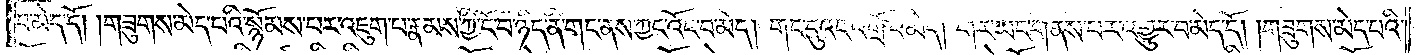བ་མེད་དོ། །གཟུགས་མེད་པའི་སྙོམས་པར་འཇུག་པ་རྣམས་ཀྱི་ངོ་བོ་ཉིད་ནི་གང་ནས་ཀྱང་འོང་བ་མེད། གང་དུའང་འགྲོ་བ་མེད། གར་ཡང་གནས་པར་འགྱུར་བ་མེད་དོ། །གཟུགས་མེད་པའི་
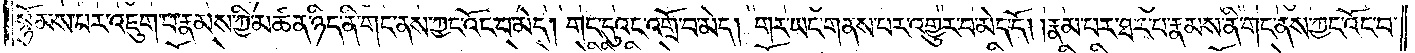སྙོམས་པར་འཇུག་པ་རྣམས་ཀྱི་མཚན་ཉིད་ནི་གང་ནས་ཀྱང་འོང་བ་མེད། གང་དུའང་འགྲོ་བ་མེད། གར་ཡང་གནས་པར་འགྱུར་བ་མེད་དོ། །རྣམ་པར་ཐར་པ་རྣམས་ནི་གང་ནས་ཀྱང་འོང་བ་
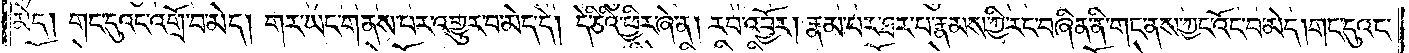མེད། གང་དུའང་འགྲོ་བ་མེད། གར་ཡང་གནས་པར་འགྱུར་བ་མེད་དེ། དེ་ཅིའི་ཕྱིར་ཞེ་ན། རབ་འབྱོར། རྣམ་པར་ཐར་པ་རྣམས་ཀྱི་རང་བཞིན་ནི་གང་ནས་ཀྱང་འོང་བ་མེད། གང་དུའང་
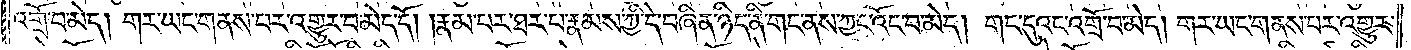འགྲོ་བ་མེད། གར་ཡང་གནས་པར་འགྱུར་བ་མེད་དོ། །རྣམ་པར་ཐར་པ་རྣམས་ཀྱི་དེ་བཞིན་ཉིད་ནི་གང་ནས་ཀྱང་འོང་བ་མེད། གང་དུའང་འགྲོ་བ་མེད། གར་ཡང་གནས་པར་འགྱུར་
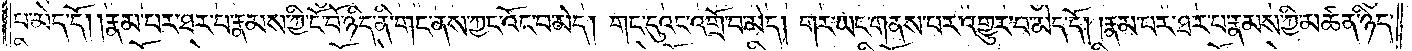བ་མེད་དོ། །རྣམ་པར་ཐར་པ་རྣམས་ཀྱི་ངོ་བོ་ཉིད་ནི་གང་ནས་ཀྱང་འོང་བ་མེད། གང་དུའང་འགྲོ་བ་མེད། གར་ཡང་གནས་པར་འགྱུར་བ་མེད་དོ། །རྣམ་པར་ཐར་པ་རྣམས་ཀྱི་མཚན་ཉིད་
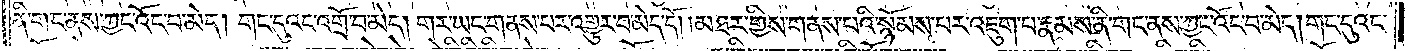ནི་གང་ནས་ཀྱང་འོང་བ་མེད། གང་དུའང་འགྲོ་བ་མེད། གར་ཡང་གནས་པར་འགྱུར་བ་མེད་དོ། །མཐར་གྱིས་གནས་པའི་སྙོམས་པར་འཇུག་པ་རྣམས་ནི་གང་ནས་ཀྱང་འོང་བ་མེད། གང་དུའང་
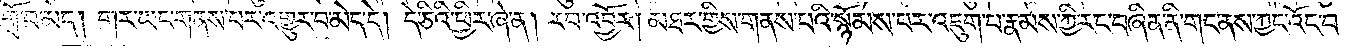འགྲོ་བ་མེད། གར་ཡང་གནས་པར་འགྱུར་བ་མེད་དེ། དེ་ཅིའི་ཕྱིར་ཞེ་ན། རབ་འབྱོར། མཐར་གྱིས་གནས་པའི་སྙོམས་པར་འཇུག་པ་རྣམས་ཀྱི་རང་བཞིན་ནི་གང་ནས་ཀྱང་འོང་བ་
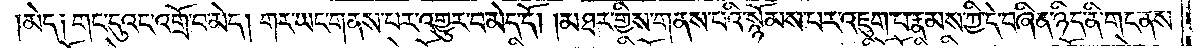མེད། གང་དུའང་འགྲོ་བ་མེད། གར་ཡང་གནས་པར་འགྱུར་བ་མེད་དོ། །མཐར་གྱིས་གནས་པའི་སྙོམས་པར་འཇུག་པ་རྣམས་ཀྱི་དེ་བཞིན་ཉིད་ནི་གང་ནས་
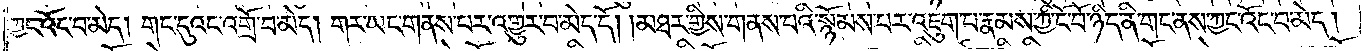ཀྱང་འོང་བ་མེད། གང་དུའང་འགྲོ་བ་མེད། གར་ཡང་གནས་པར་འགྱུར་བ་མེད་དོ། །མཐར་གྱིས་གནས་པའི་སྙོམས་པར་འཇུག་པ་རྣམས་ཀྱི་ངོ་བོ་ཉིད་ནི་གང་ནས་ཀྱང་འོང་བ་མེད།
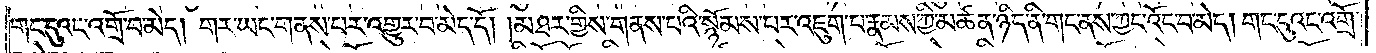གང་དུའང་འགྲོ་བ་མེད། གར་ཡང་གནས་པར་འགྱུར་བ་མེད་དོ། །མཐར་གྱིས་གནས་པའི་སྙོམས་པར་འཇུག་པ་རྣམས་ཀྱི་མཚན་ཉིད་ནི་གང་ནས་ཀྱང་འོང་བ་མེད། གང་དུའང་འགྲོ་
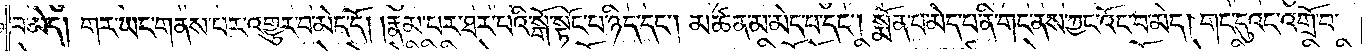བ་མེད། གར་ཡང་གནས་པར་འགྱུར་བ་མེད་དོ། །རྣམ་པར་ཐར་པའི་སྒོ་སྟོང་པ་ཉིད་དང༌། མཚན་མ་མེད་པ་དང༌། སྨོན་པ་མེད་པ་ནི་གང་ནས་ཀྱང་འོང་བ་མེད། གང་དུའང་འགྲོ་བ་
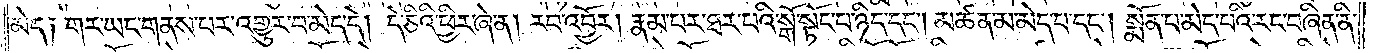མེད། གར་ཡང་གནས་པར་འགྱུར་བ་མེད་དེ། དེ་ཅིའི་ཕྱིར་ཞེ་ན། རབ་འབྱོར། རྣམ་པར་ཐར་པའི་སྒོ་སྟོང་པ་ཉིད་དང༌། མཚན་མ་མེད་པ་དང༌། སྨོན་པ་མེད་པའི་རང་བཞིན་ནི་
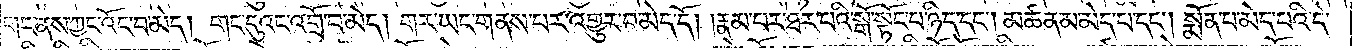གང་ནས་ཀྱང་འོང་བ་མེད། གང་དུའང་འགྲོ་བ་མེད། གར་ཡང་གནས་པར་འགྱུར་བ་མེད་དོ། །རྣམ་པར་ཐང་པའི་སྒོ་སྟོང་པ་ཉིད་དང༌། མཚན་མ་མེད་པ་དང༌། སྨོན་པ་མེད་པའི་དེ་
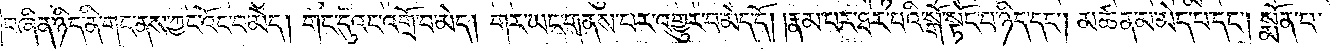བཞིན་ཉིད་ནི་གང་ནས་ཀྱང་འོང་བ་མེད། གང་དུའང་འགྲོ་བ་མེད། གར་ཡང་གནས་པར་འགྱུར་བ་མེད་དོ། །རྣམ་པར་ཐར་པའི་སྒོ་སྟོང་པ་ཉིད་དང༌། མཚན་མ་མེད་པ་དང༌། སྨོན་པ་
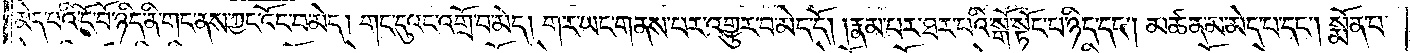མེད་པའི་ངོ་བོ་ཉིད་ནི་གང་ནས་ཀྱང་འོང་བ་མེད། གང་དུའང་འགྲོ་བ་མེད། གར་ཡང་གནས་པར་འགྱུར་བ་མེད་དོ། །རྣམ་པར་ཐར་པའི་སྒོ་སྟོང་པ་ཉིད་དང༌། མཚན་མ་མེད་པ་དང༌། སྨོན་པ་
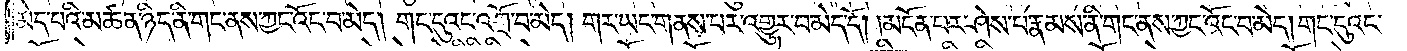མེད་པའི་མཚན་ཉིད་ནི་གང་ནས་ཀྱང་འོང་བ་མེད། གང་དུའང་འགྲོ་བ་མེད། གར་ཡང་གནས་པར་འགྱུར་བ་མེད་དོ། །མངོན་པར་ཤེས་པ་རྣམས་ནི་གང་ནས་ཀྱང་འོང་བ་མེད། གང་དུའང་
